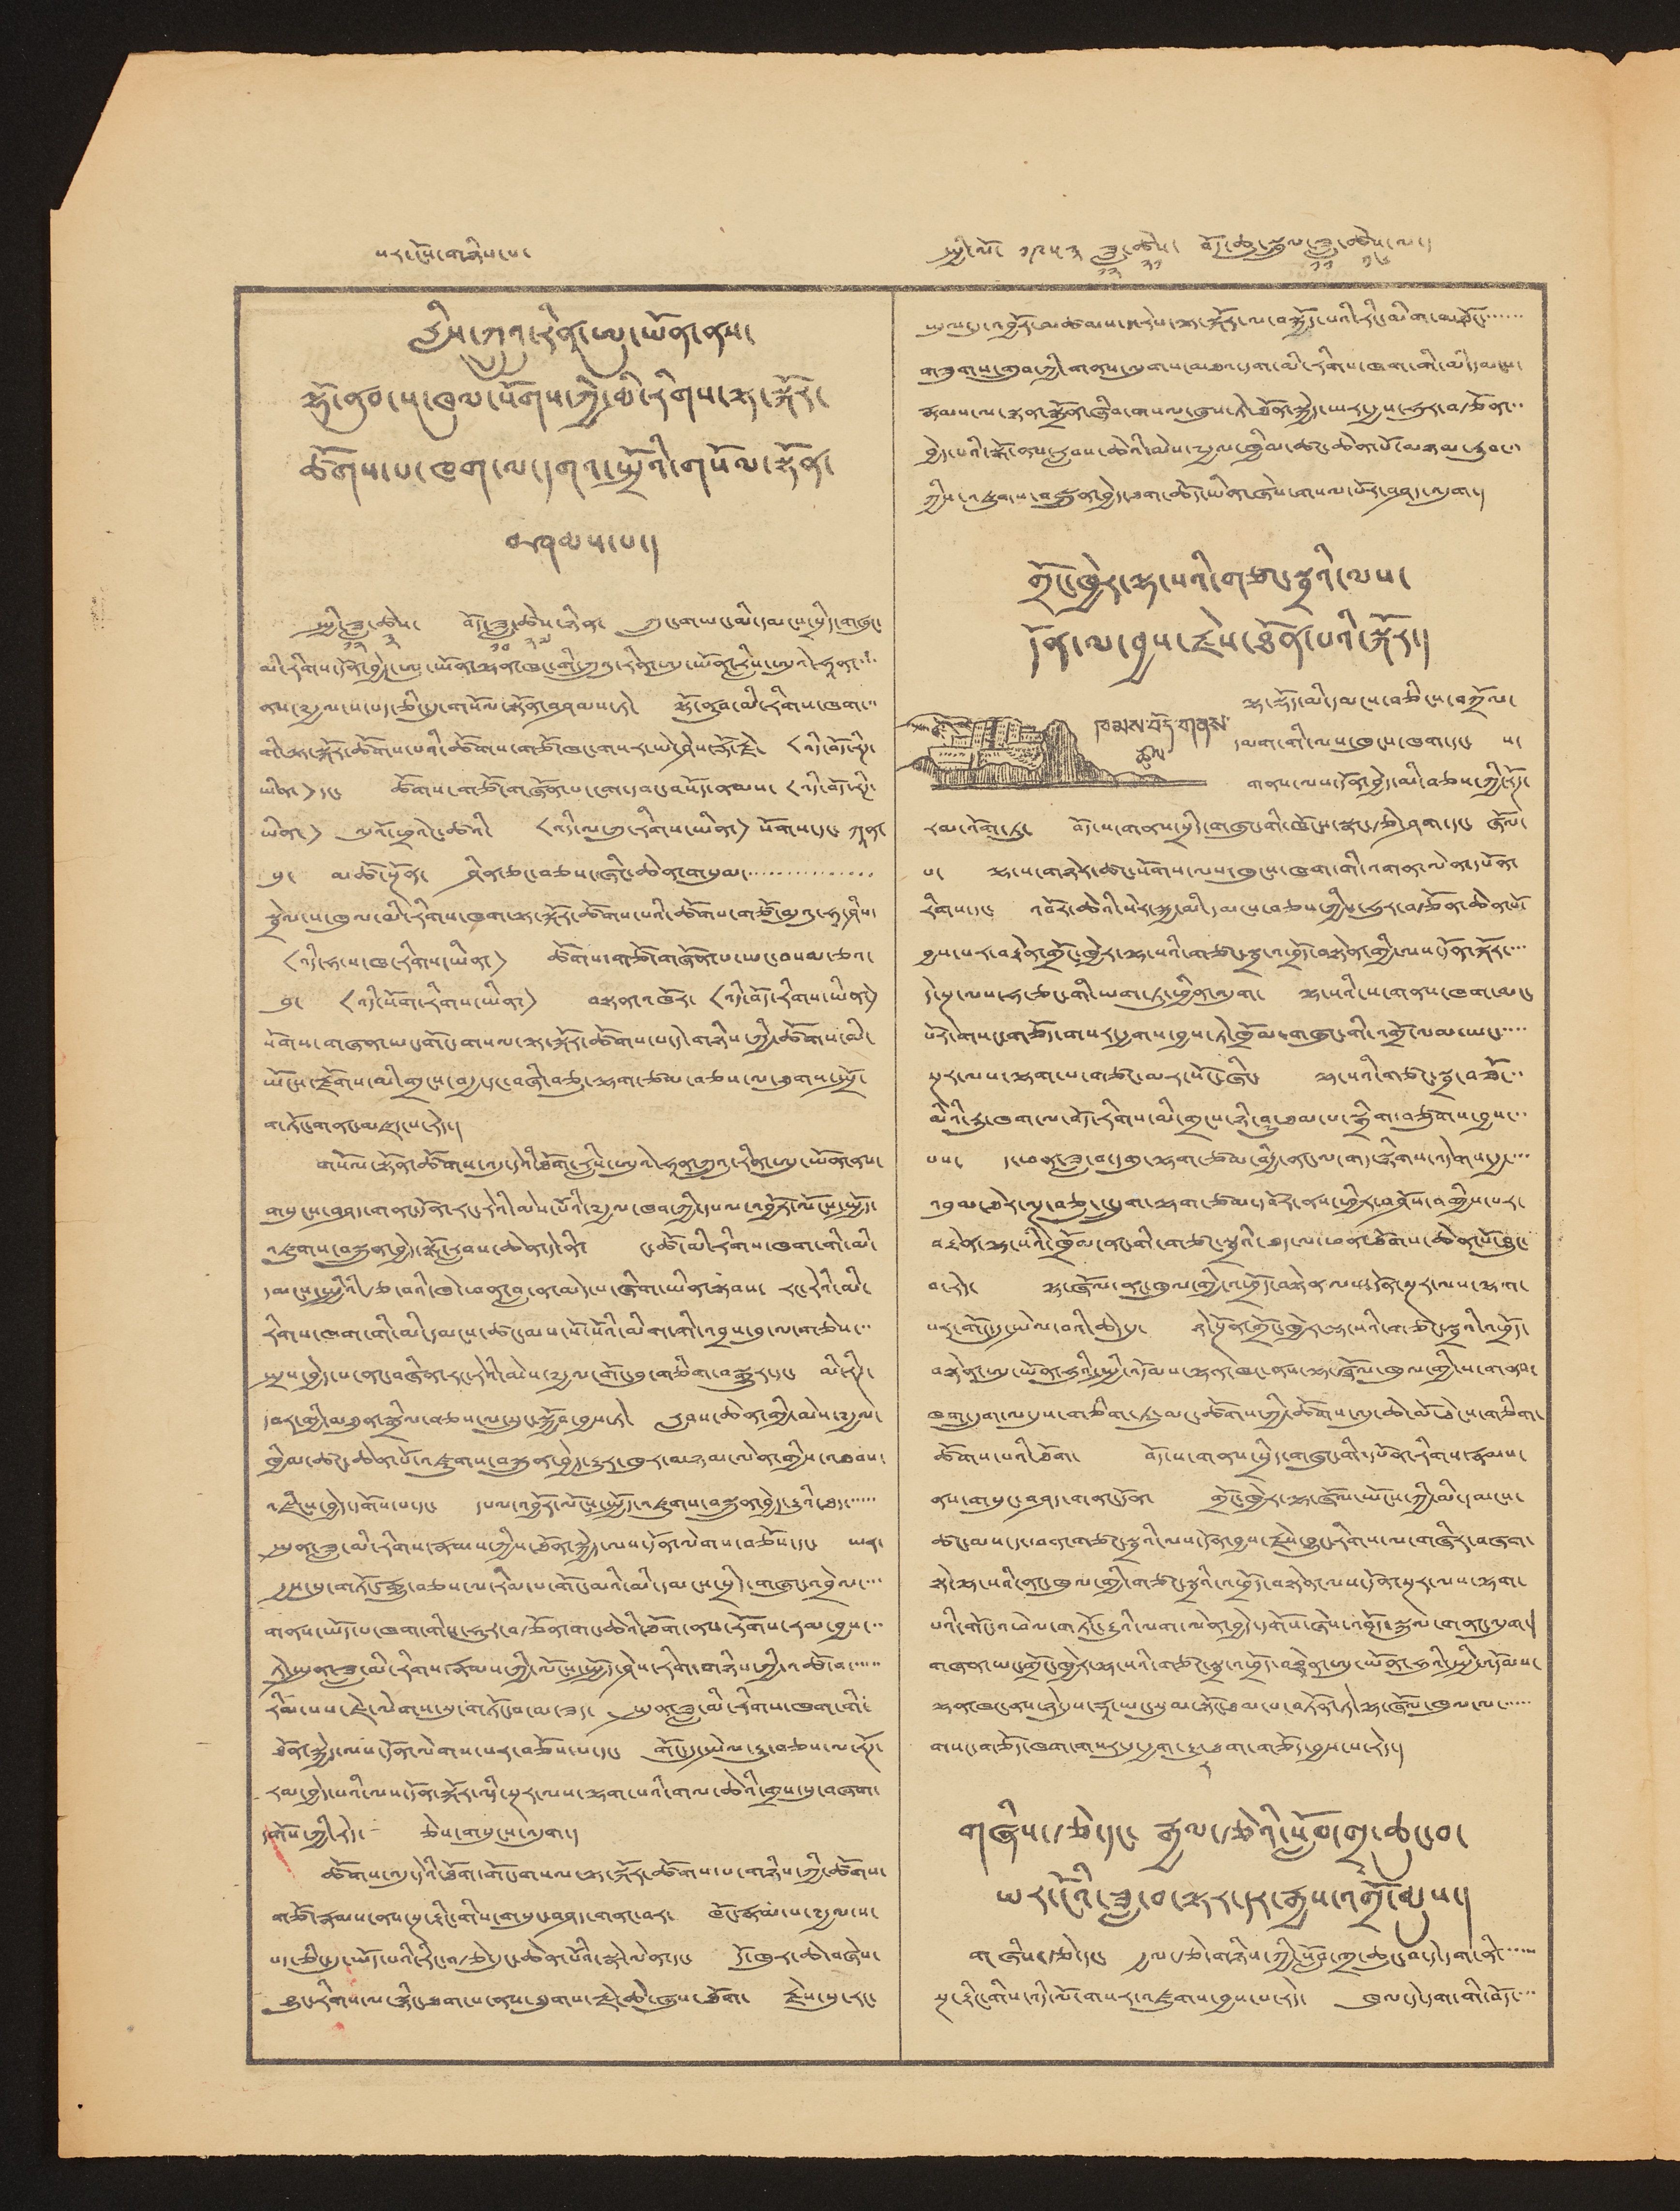པར་ངོས་གཉིས་པ་ སྤྱི་ལོ་ ༡༩༥༣ ཟླ་
༡༢
ཚེས་
༢༡
བོད་ཆུ་སྦྲུལ་ཟླ་
༡༡
ཚེས་
༡༦
ལ་།
རླིས་ཀྲུའུ་རིན་ཨུ་ཡོན་ནས་
ལྷོ་ནུབ་ས་ཁུལ་སོགས་ཀྱི་མི་རིགས་ལྟ་སྐོར་
ཚོགས་པ་ཁག་ལ་དགའ་སྤྲོའི་གསོལ་སྟོན་
བཤམས་པ་།
སྤྱི་ཟླ་
༡༢
ཚེས་
༣
བོད་ཟླ་
༡༠
ཚེས་
༢༧
ཉིན་ ཀྲུང་གཡང་མི་དམངས་སྲིད་གཞུང་
མི་རིགས་དོན་བྱེད་ཡོན་ལྷན་ཁང་གི་ཀྲུའུ་རིན་ཨུ་ཡོན་རླིས་ཨུའེ་ཧཱན་་་་
ནས་༸རྒྱལ་ས་པད་ཅིང་དུ་གསོལ་སྟོན་བཤམས་ཏེ་ ལྷོ་ནུབ་མི་རིགས་ཁག་་་
གི་ལྟ་སྐོར་ཚོགས་པའི་ཚོགས་གཙོ་ཁང་གསར་ཡེ་ཤེས་རྡོ་རྗེ་ <འདི་བོད་རིཊ་
ཡིན་> ཚོགས་གཙོ་གཞོན་པ་ངག་དབང་བསོད་ནམས་ <འདི་བོད་རིཊ་
ཡིན་> ལུའོ་ཕྲའེང་ཚའི་ <འདི་ལ་ཀུ་རིགས་ཡིན་> སོགས་དང་ ཀཱན་
སུ་ མཚོ་སྔོན་ ཤིང་ཅང་བཅས་ཞིང་ཆེན་གསུམ་་་་་་་་་་་་་་་་
སྦྲེལ་ས་ཁུལ་མི་རིགས་ཁག་ལྟ་སྐོར་ཚོགས་པའི་ཚོགས་གཙོ་མུའུ་ཧཱ་ཤིས་
<འདི་ཧ་ས་ཁ་རིགས་ཡིན་> ཚོགས་གཙོ་གཞོན་པ་ཡང་བསམ་ཅའ་
བུ་ <འདི་སོག་རིགས་ཡིན་> བསྟན་འཁོར་ <འདི་བོད་རིགས་ཡིན་>
སོགས་གཞན་ཡང་གོང་གསལ་ལྟ་སྐོར་ཚོགས་པ་དེ་གཉིས་ཀྱི་ཚོགས་མི་
ཡོངས་རྫོགས་མི་གྲངས་བརྒྱ་དང་བཞི་བཅུ་ལྷག་ཙམ་བཅས་ལ་ཐུགས་སྤྲོ་
གཏོང་གནང་མཛད་པ་རེད་།
གསོལ་སྟོན་ཚོགས་འདུ་དེའི་ཐོག་རླིས་ཨུའེ་ཧཱན་ཀྲུའུ་རིན་ཨུ་ཡོན་ནས་
གསུངས་བཤད་གནང་དོན་རངག་རེའི་མེས་པོའི་༸རྒྱལ་ཁབ་ཀྱི་དཔལ་འབྱོར་ལོངས་སྤྱོད་
འཛུགས་བསྐྲུན་བྱེད་སྒོ་རླབས་ཆེན་དེ་ནི་ ང་ཚོ་མི་རིགས་ཁག་གི་མི་
དམངས་སྤྱིའི་རྩ་བའི་ཁེ་ཕན་བླ་ན་མེད་པ་ཞིག་ཡིན་སྟབས་ རང་རེའི་མི་
རིགས་ཁག་གི་མི་དམངས་ཚང་མས་སོ་སོའི་མིག་གི་འབྲས་བུ་ལ་གཅེས་་་
སྤྲས་བྱེད་པ་ནང་བཞིན་རང་རེའི་མེས་༸རྒྱལ་གོང་བུ་གཅིག་བསྒྱུར་དང་ མི་རིཊ་
དབར་གྱི་མཐུན་སྒྲིལ་བཅས་ལ་སྲུང་སྐྱོབ་བྱས་ཏེ་ རླབས་ཆེན་གྱི་མེས་༸རྒྱལ་
ཁྱིམ་ཚང་ཆེན་པོ་འཛུགས་བསྐྲུན་བྱེད་རྒྱུར་ཁུར་མཉམ་ལེན་གྱིས་འཐབས་
འཛིངས་བྱེད་དགོས་པ་དང་ དཔལ་འབྱོར་ལོངས་སྤྱོད་འཛུགས་བསྐྲུན་བྱེད་རྒྱུའི་ཐད་་་་་་
སྤུན་ཟླ་མི་རིགས་རྣམས་ཀྱིས་ཐོན་སྐྱེད་ལས་དོན་ལེགས་བཅོས་དང་ ཡན་
རྒྱས་སུ་གཏོང་རྒྱུ་བཅས་ལ་རིམ་པ་གོང་མའི་མི་དམངས་སྲིད་གཞུང་འབྲེལ་་་་
གནས་ཡོད་པ་ཁག་གིས་ཧུར་བརྩོན་གང་ཆེའི་ཐོག་ནས་རོགས་རམ་བྱས་་་
ཏེ་སྤུན་ཟླ་མི་རིགས་རྣམས་ཀྱི་ལོངས་སྤྱོད་ཤེས་རིག་གཉིས་ཀྱི་འཚོ་བ་་་་་་
རིམ་པས་ཇེ་ལེགས་སུ་གཏོང་བ་མ་ཟད་ སྤུན་ཟླ་མི་རིགས་ཁག་གི་
ཐོན་སྐྱེད་ལས་དོན་ལེགས་པར་བཅོས་པ་དང་ གོང་དུ་སྤེལ་རྒྱུ་བཅས་ལ་རོཊ་
རམ་བྱེད་པའི་ལས་དོན་སྐོར་འདི་སྔར་ལས་ལྷག་པའི་གལ་ཆེའི་གྲས་སུ་བཞག་
དགོས་ཀྱི་རེད་ ཅེས་གསུངས་འདུག་།
ཚོགས་འདུ་དེའི་ཐོག་གོང་གསལ་ལྟ་སྐོར་ཚོགས་པ་གཉིས་ཀྱི་ཚོགས་
གཙོ་རྣམས་ནས་སྔ་རྟིང་གིས་གསུང་བཤད་གནང་བར་ ཁོང་རྣམ་པ་༸རྒྱལ་ས་
པད་ཅིང་དུ་ཡོད་པའི་རིང་བརྩེ་དུང་ཆེན་པོའི་སྣེ་ལེན་དང་ དོ་ཁུར་ཆེ་བཞེས་
བྱུང་རིགས་ལ་སྙིང་ཐག་པ་ནས་ཐུགས་རྗེ་ཆེ་ཞུས་ཐོག་ རྗེས་སུ་རང་
ཡུལ་དུ་འབྱོར་མཚམས་ད་རེས་ལྟ་སྐོར་ལ་བསྐྱོད་པའི་རིང་མིག་མཐོང་་་་་་
གཟུགས་གྲུབ་ཀྱི་གནས་ལུགས་མཐའ་དག་མི་རིགས་ཁག་གི་མི་དམངས་
རྣམས་ལ་སྙན་སྒྲོན་ཞིབ་གསལ་ཞུས་ཏེ་ཐོན་སྐྱེད་ཡར་རྒྱས་ཧུར་བརྩོན་་་
བྱེད་པའི་སྒོ་ནས་རླབས་ཆེའི་མེས་༸རྒྱལ་ཁྱིམ་ཚང་ཆེན་པོ་མཉམ་རུབ་་་
ཀྱིས་འཛུགས་བསྐྲུན་བྱེད་ཐག་ཆོད་ཡིན་ཞེས་གསལ་པོར་བཤད་འདུག་།
གྲོང་ཁྱེར་ལྷ་སའི་གཙང་སྦྲའི་ལས་
དོན་ལ་བྱས་རྗེས་ཐོན་པའི་སྐོར་།
ཁམས་བོད་གནས་
ཚུལ་
ལྷ་སྡོད་མི་དམངས་བཅིངས་བཀྲོལ་
དམག་གི་ལས་ཁུངས་ཁག་དང་ ས་
གནས་ལས་དོན་བྱེད་མི་བཅས་ཀྱི་རོཊ་
རམ་འོག་ཏུ་ བོད་ས་གནས་སྲིད་གཞུང་གི་ཁོངས་སྣང་རྩེ་ཤག་དང་ ཞོལ་
པ་ ལྷ་ས་གཉེན་ཚང་སོགས་ལས་ཁུངས་ཁག་གི་འགན་ལེན་དཔོན་
རིགས་དང་ འབོར་ཆེའི་སེར་སྐྱ་མི་དམངས་བཅས་ཀྱིས་ཧུར་བརྩོན་ཆེན་པོ་
བྱས་པར་བརྟེན་གྲོང་ཁྱེར་ལྷ་སའི་གཙང་སྦྲ་འཕྲོད་བསྟེན་གྱི་ལས་དོན་སྐོར་་་་
དེ་སྔ་ལས་ཧ་ཅང་གི་ཡག་ཏུ་ཕྱིན་འདུག་ ལྷ་སའི་ས་གནས་ཁག་མང་
པོར་གསང་གཅོད་གསར་རྒྱགས་བྱས་ཏེ་ཁྲོམ་གཞུང་གི་འགྲོ་ལམ་ཡང་་་་་
སྔར་ལས་ལྷག་པ་གཙང་མར་སོང་ཞིང་ ལྷ་སའི་གཙང་སྦྲ་བཟོ་་་
མིའི་རུ་ཁག་ལ་བོད་རིགས་མི་གྲངས་ཉི་ཤུ་ཐམམ་པ་སྒྲིག་བཙུགས་བྱས་་་་
པས་ ད་ཕན་ཟླ་བ་དགུ་ལྷག་ཙམ་གྱི་ནང་ལ་གད་སྙིགས་འདེགས་རྒྱ་་་་
འབུམ་ཐེར་ལྔ་བཅུ་ང་དྲུག་ལྷག་ཙམ་དབོར་ནས་ཕྱིར་བཤོས་བགྱིས་པར་
བརྟེན་ལྷ་སའི་ཁྲོམ་ནང་གི་གཙང་སྦྲའི་ཐད་ལ་ཕན་ཐོགས་ཆེན་པོ་བྱུང་
བ་རེད་ ལྷ་ཞོལ་ནང་ཁུལ་གྱི་འཕྲོད་བསྟེན་ལས་དོན་སྔར་ལས་ལྷག་
པར་གོང་དུ་སྤེལ་བའི་ཆེད་དུ་ ཉེ་སྔོན་གྲོང་ཁྱེར་ལྷ་སའི་གཙང་སྦྲའི་འཕྲོད་
བསྟེན་ཨུ་ཡོན་ཧུའི་སྤྱི་འདོམས་ལྷན་ཁང་ནས་ལྷ་ཞོལ་ཁུལ་གྱི་ས་གནས་
ཁག་དྲུག་ལ་དུས་གཅིག་ཏུ་མང་ཚོགས་ཀྱི་ཚོགས་འདུ་ཆེ་མོ་ཐེངས་གཅིག་
ཚོགས་པའི་ཐོག་ བོད་ས་གནས་སྲིད་གཞུང་གི་དཔོན་རིགས་རྣམས་
ནས་གསུང་བཤད་གནང་དོན་ གྲོང་ཁྱེར་ལྷ་ཞོལ་ཡོངས་ཀྱི་མི་དམངས་
ཚང་མས་ད་ཕན་གཙང་སྦྲའི་ལས་དོན་བྱས་རྗེས་བྱུང་རིགས་ལ་གཞིར་བཞག་
སྟེ་ལྷ་སའི་ནང་ཁུལ་གྱི་གཙང་སྦྲའི་འཕྲོད་བསྟེན་ལས་དོན་སྔར་ལས་ལྷག་
པའི་གོང་འཕེལ་གཏོང་རྒྱུའི་ལག་ལེན་བྱེད་དགོས་ཞེས་འབོད་སྐུལ་གནང་འདུག་།
གཞན་ཡང་གྲོང་ཁྱེར་ལྷ་སའི་གཙང་སྦྲ་འཕྲོད་བསྟེན་ཨུ་ཡོན་ཧུའི་སྤྱི་འདོམས་
ལྷན་ཁང་ནས་ཉེ་དུས་རྡཱ་ཡང་སུམ་སྟོང་ཐམ་པ་བཏོན་ཏེ་ལྷ་ཞོལ་ཁུལ་ལ་་་་་་
གསང་གཅོད་ཁག་གསར་དུ་རྒྱག་རྒྱུ་
ར
ཐག་གཅོད་བྱས་པ་རེད་།
གཞིས་རྩེ་དང་ རྒྱལ་རྩེའི་སློབ་གྲྭ་ཆུང་བ་
ཡར་ངོའི་ཟླ་བ་ལྟར་དར་རྒྱས་འགྲོ་མུས་།
གཞིས་རྩེ་དང་ རྒྱལ་རྩེ་གཉིས་ཀྱི་སློབ་གྲ་ཆུང་བ་དེ་དག་ནི་་་་་་
སྔ་རྟིང་གིས་འདི་ལོ་གསར་འཛུགས་བྱས་པ་རེད་ ཁུལ་དེ་དག་གི་བོད་་་་
